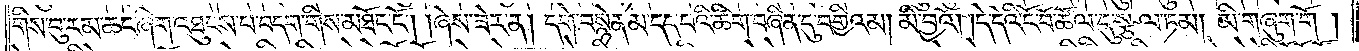གིས་བུ་རམ་ཆང་ཞིག་འཐུངས་པ་བདག་གིས་མཐོང་ངོ༌། །ཞེས་ཟེར་ན། དགེ་བསྙེན་མ་དད་པའི་ཚིག་བཞིན་དུ་བགྱིའམ། མི་བྱའོ། །དེ་དེའི་ངོ་བོ་ཚོལ་དུ་སྩལ་ཏམ། མི་གཞུག་གོ།
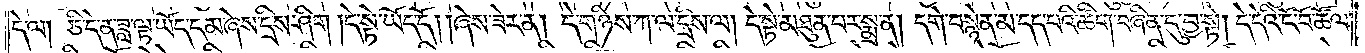དེ་ལ། ཅི་དེ་ན་ཟླ་ལྟ་ཡོད་དམ་ཞེས་དྲིས་ཤིག །དེ་སྟེ་ཡོད་དོ། །ཞེས་ཟེར་ན། དེ་གཉིས་ཀ་ལ་དྲིས་ལ། དེ་སྟེ་མཐུན་པར་སྨྲ་ན། དགེ་བསྙེན་མ་དད་པའི་ཚིག་བཞིན་དུ་བྱ་སྟེ། དེ་དེའི་ངོ་བོ་ཚོལ་
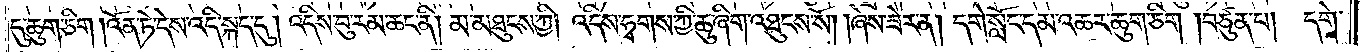དུ་ཆུག་ཅིག །འོན་ཏེ་དེས་འདི་སྐད་དུ། འདིས་བུ་རམ་ཆང་ནི། མ་མཐུངས་ཀྱི། འདིས་ཧྭགས་ཀྱི་ཆུ་ཞིག་འཐུངས་སོ། །ཞེས་ཟེར་ན། དགེ་སློང་དམ་འཆར་ཆུག་ཅིག །བཙུན་པ། དགེ་
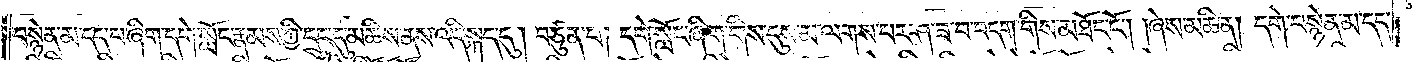བསྙེན་མ་དད་པ་ཞིག་དགེ་སློང་རྣམས་ཀྱི་དྲུང་དུ་མཆིས་ནས་འདི་སྐད་དུ། བཙུན་པ། དགེ་སློང་ཞིག་གིས་དུས་མ་ལགས་པར་ཤ་ཟ་བ་བདག་གིས་མཐོང་ངོ༌། །ཞེས་མཆི་ན། དགེ་བསྙེན་མ་དད་
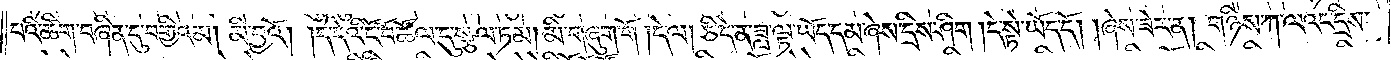པའི་ཚིག་བཞིན་དུ་བགྱིའམ། མི་བྱའོ། །དེ་དེའི་ངོ་བོ་ཚོལ་དུ་སྩལ་ཏམ། མི་གཞུག་གོ །དེ་ལ། ཅི་དེ་ན་ཟླ་ལྟ་ཡོད་དམ་ཞེས་དྲིས་ཤིག །དེ་སྟེ་ཡོད་དོ། །ཞེས་ཟེར་ན། གཉིས་ཀ་ལའང་དྲིས་
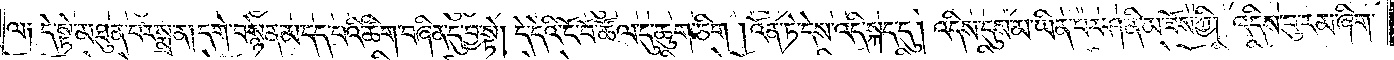ལ༑ དེ་སྟེ་མཐུན་པར་སྨྲ་ན།དགེ་བསྙེན་མ་དད་པའི་ཚིག་བཞིན་དུ་བྱ་སྟེ། དེ་དེའི་ངོ་བོ་ཚོལ་དུ་ཆུག་ཅིག །འོན་ཏེ་དེས་འདི་སྐད་དུ། འདིས་དུས་མ་ཡིན་པར་ཤ་ནི་མ་ཟོས་ཀྱི། འདིས་བུ་རམ་ཞིག་
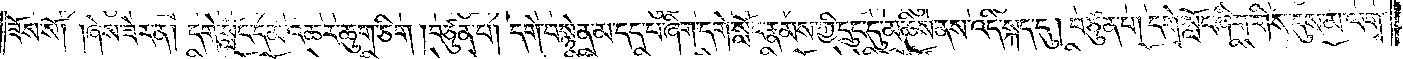ཟོས་སོ། །ཞེས་ཟེར་ན། དགེ་སློང་དམ་འཆར་ཆུག་ཅིག །བཙུན་པ། དགེ་བསྙེན་མ་དད་པ་ཞིག་དགེ་སློང་རྣམས་ཀྱི་དྲུང་དུ་མཆིས་ན་འདི་སྐད་དུ། བཙུན་པ། དགེ་སློང་ཞིག་གིས་དུས་མ་ལགས་
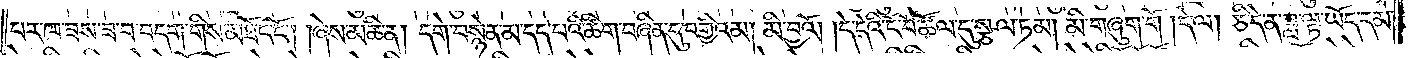པར་ཁ་ཟས་ཟ་བ་བདག་གིས་མཐོང་ངོ༌། །ཞེས་མཆི་ན། དགེ་བསྙེན་མ་དད་པའི་ཚིག་བཞིན་དུ་བགྱིའམ། མི་བྱའོ། །དེ་དེའི་ངོ་བོ་ཚོལ་དུ་སྩལ་ཏམ། མི་གཞུག་གོ །དེ་ལ། ཅི་དེ་ན་ཟླ་ལྟ་ཡོད་དམ་
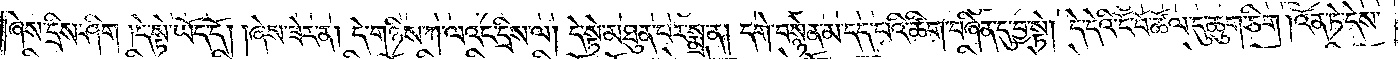ཞེས་དྲིས་ཤིག །དེ་སྟེ་ཡོད་དོ། །ཞེས་ཟེར་ན། དེ་གཉིས་ཀ་ལའང་དྲིས་ལ། དེ་སྟེ་མཐུན་པར་སྨྲ་ན། དགེ་བསྙེན་མ་དད་པའི་ཚིག་བཞིན་དུ་བྱ་སྟེ། དེ་དེའི་ངོ་བོ་ཚོལ་དུ་ཆུག་ཅིག །འོན་ཏེ་དེས་
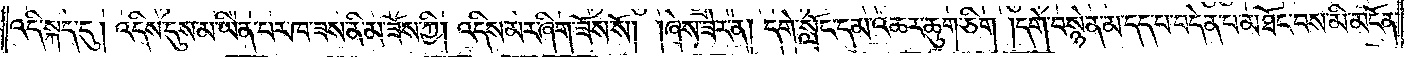འདི་སྐད་དུ། འདིས་དུས་མ་ཡིན་པར་ཁ་ཟས་ནི་མ་ཟོས་ཀྱི། འདིས་མར་ཞིག་ཟོས་སོ། །ཞེས་ཟེར་ན། དགེ་སློང་དམ་འཆར་ཆུག་ཅིག །དགེ་བསྙེན་མ་དད་པ་བདེན་པ་མཐོང་བས་མི་མངོན་
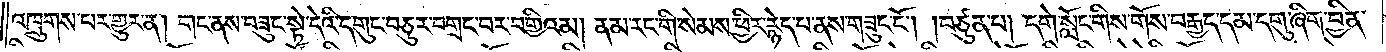འཁྲུགས་པར་གྱུར་ན། གང་ནས་བཟུང་སྟེ་དེའི་དགུང་བཅུར་བགྲང་བར་བགྱིའམ། ནམ་རང་གི་སེམས་ཕྱིར་རྙེད་པ་ནས་གཟུང་ངོ༌། །བཙུན་པ། དགེ་སློང་གིས་གོས་བརྒྱད་དམ་དགུ་ཞིག་བྱིན་
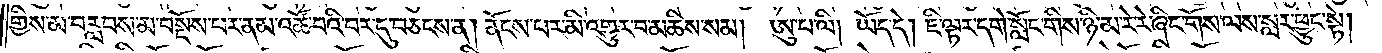གྱིས་མ་བརླབས་མ་བསྔོས་པར་ནམ་འཚོ་བའི་བར་དུ་བཅངས་ན། ནོངས་པར་མི་འགྱུར་བ་མཆིས་སམ། ཨུ་པ་ལི། ཡོད་དེ། ཇི་ལྟར་དགེ་སློང་གིས་ཉི་མ་རེ་རེ་ཞིང་གོས་ལས་སླར་ཕྱུང་སྟེ།
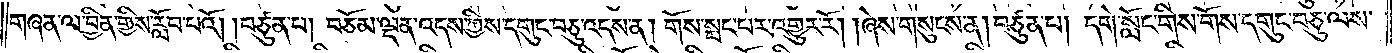གཞན་ལ་བྱིན་གྱིས་རློབ་པའོ། །བཙུན་པ། བཅོམ་ལྡན་འདས་ཀྱིས་དགུང་བཅུ་འདས་ན། གོས་སྤང་བར་འགྱུར་རོ། །ཞེས་གསུངས་ན། བཙུན་པ། དགེ་སློང་གིས་གོས་དགུང་བཅུ་ལས་
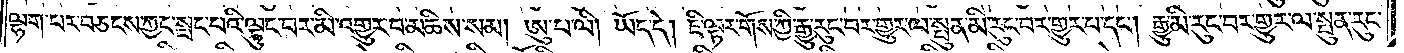ལྷག་པར་བཅངས་ཀྱང་སྤང་པའི་ལྟུང་བར་མི་འགྱུར་པ་མཆིས་སམ། ཨུ་པ་ལི། ཡོད་དེ། ཇི་ལྟར་གོས་ཀྱི་རྒྱུ་རུང་བར་གྱུར་ལ་སྤུན་མི་རུང་བར་གྱུར་པ་དང༌། རྒྱུ་མི་རུང་བར་གྱུར་ལ་སྤུན་རུང་
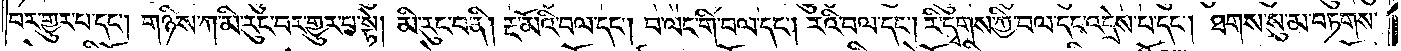བར་གྱུར་པ་དང༌། གཉིས་ཀ་མི་རུང་བར་གྱུར་བ་སྟེ། མི་རུང་བ་ནི། རྔ་མོའི་བལ་དང༌། བ་ལང་གི་བལ་དང༌། རའི་བལ་དང༌། རི་དྭགས་ཀྱི་བལ་དང་འདྲེས་པ་དང༌། ཐགས་སུ་མ་བཏགས་
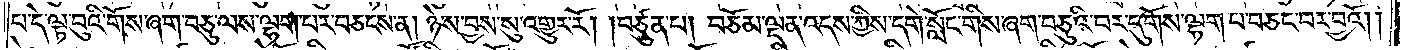པ་དེ་ལྟ་བུའི་གོས་ཞག་བཅུ་ལས་ལྷག་པར་བཅངས་ན། ཉེས་བྱས་སུ་འགྱུར་རོ། །བཙུན་པ། བཅོམ་ལྡན་འདས་ཀྱིས་དགེ་སློང་གིས་ཞག་བཅུའི་བར་དུ་གོས་ལྷག་པ་བཅང་བར་བྱའོ། །
